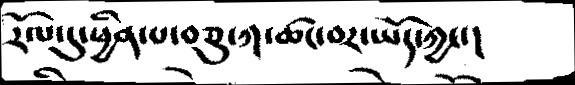རོལ་དུ་ཕྱིན་པ་བཅུ་ཀ་ཚང་བར་ཡོད་ཀྱང་།
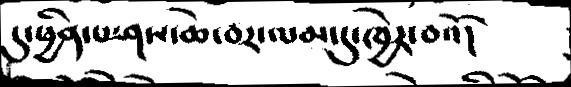དུ་ཕྱིན་པ་ཤས་ཆེ་བར་ལམ་དུ་ཁྱེར་བའོ།་
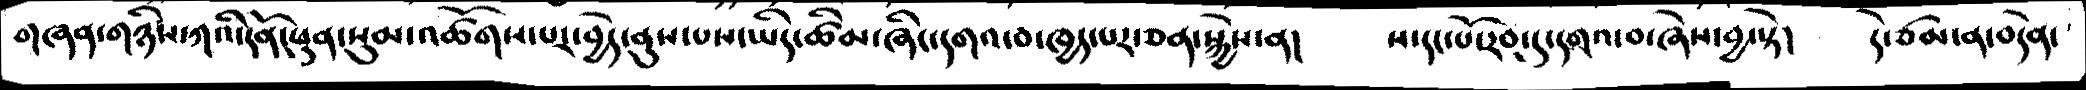གཞན་གཉིས་ཀའི་དོན་ཕུན་སུམ་འཚོགས་པར་བྱེད་ནུས་པས་ཡིད་ཚིམ་ཞིང་དགའ་བ་ཁྱད་པར་ཅན་སྐྱེས་ན།    ས་དང་པོ་རབ་དུ་དགའ་བ་ཞེས་བྱ་སྟེ།   དེ་ཙམ་ན་བདེན་
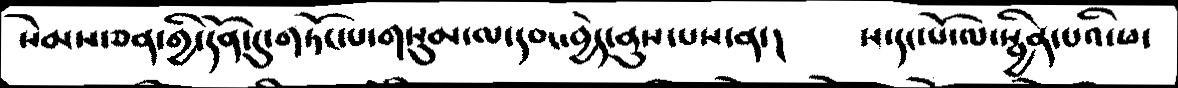སེམས་ཅན་གྱི་དོན་དུ་གཏོང་པ་གསུམ་ལ་དབང་བྱེད་ནུས་པས་ན་།   ས་དང་པོ་ལ་སྦྱིན་པའི་ཕ་
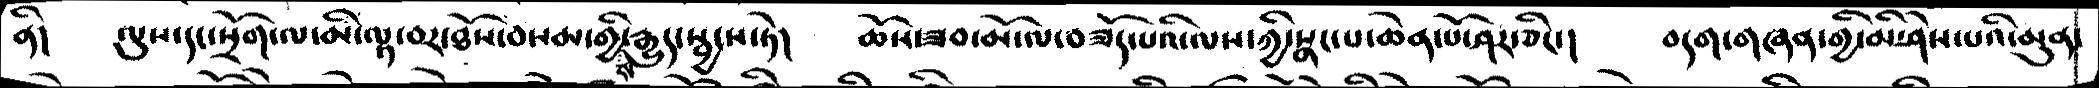ནི།    ལུས་དང་སྲོག་ལ་མི་ལྟ་བར་ཐོས་བསམ་གྱིས་རྒྱུད་སྦྱངས་ཏེ།    ཆོས་ཟབ་མོ་ལ་བཟོད་པའི་ལས་ཀྱི་སྣང་པ་ཆེན་པོ་ཤར་ཅིང་།   བདག་གཞན་གྱི་མི་ཤེས་པའི་མུན་
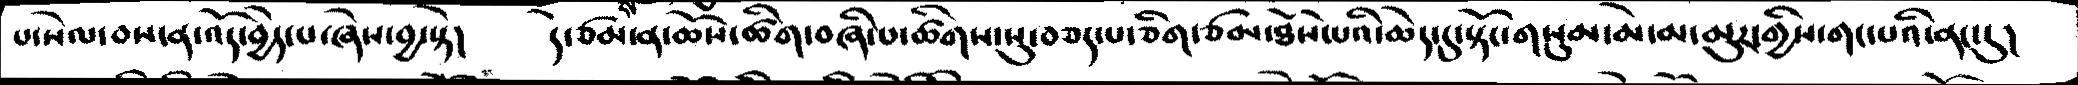པ་སེལ་བས་ན་འོད་བྱེད་པ་ཞེས་བྱ་སྟེ།    དེ་ཙམ་ན་ཆོས་ཚིག་བཞི་པ་ཚིགས་སུ་བཅད་པ་ཅིག་ཙམ་ཐོས་པའི་ཆེད་དུ་སྟོང་གསུམ་མེ་མ་མུར་གྱིས་གང་པའི་ནང་དུ།
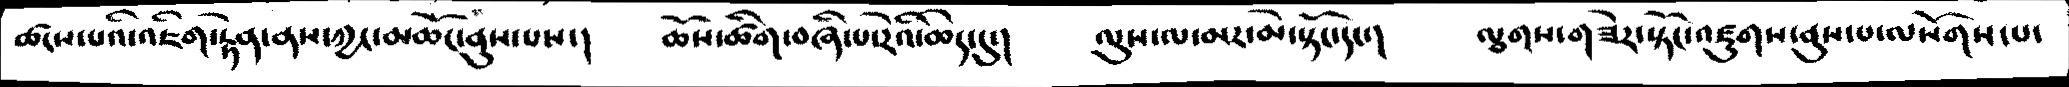ཚངས་པའི་འཇིག་རྟེན་ནས་ཀྱང་མཆོང་ནུས་པས་།    ཆོས་ཚིག་བཞི་པ་རེའི་ཆེད་དུ་།    ལུས་ལ་མར་མེ་སྟོང་དང་།    ལྕགས་གཟེར་སྟོང་འཛུགས་ནུས་པ་ལསོགས་པ་
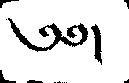༄༅།
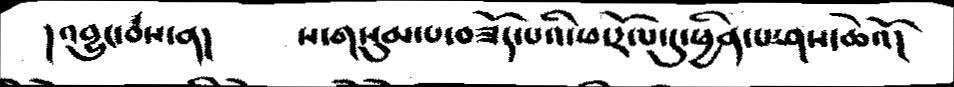།འབྱུང་བས་ན།    ས་གསུམ་པ་བཟོད་པའི་ཕ་རོལ་དུ་ཕྱིན་པ་ཤས་ཆེའོ།
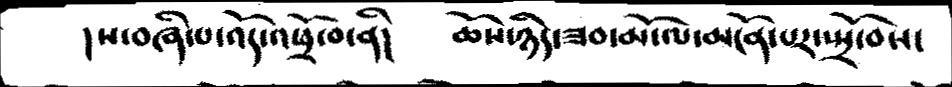།ས་བཞི་པ་འདོ་འཕྲོ་བ་ནི།    ཆོས་ཉིད་ཟབ་མོ་ལ་མངོན་པར་སྤྲོ་བས་
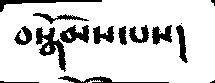བསྒོམས་པས།
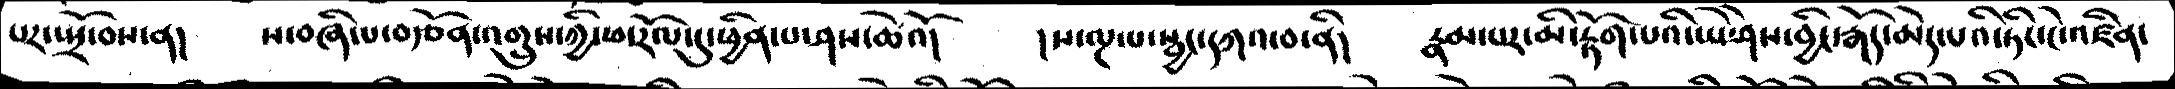པར་སྤྲོ་བས་ན།    ས་བཞི་པ་བརྩོན་གྲུས་ཀྱི་ཕ་རོལ་དུ་ཕྱིན་པ་ཤས་ཆེའོ།    །ས་ལྔ་པ་སྦྱང་དཀའ་བ་ནི།   རྣམ་པར་མི་རྟོག་པའི་ཡེ་ཤེས་བྱིང་རྒོད་མེད་པའི་ཏིང་ངེ་འཛིན་
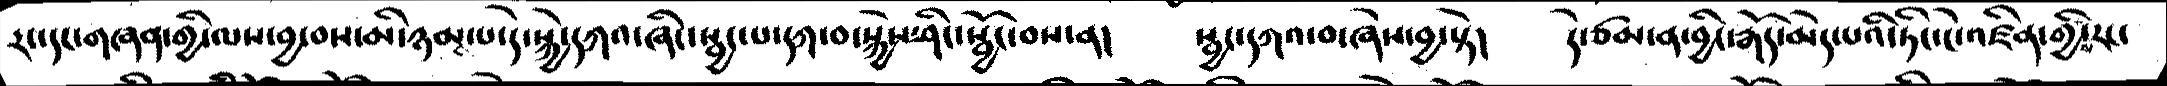རང་དང་གཞན་གྱི་ལས་བྱ་བས་མི་ཉམ་པ་དེ་སྐྱེ་དཀའ་ཞིང་སྦྱང་པ་དཀ་བ་སྐྱེས་ཤིང་སྦྱོང་བས་ན།    སྦྱང་དཀའ་བ་ཞེས་བྱ་སྟེ།   དེ་ཙམ་ན་བྱིང་རྒོད་མེད་པའི་ཏིང་ངེ་འཛིན་གྱིས་རང་
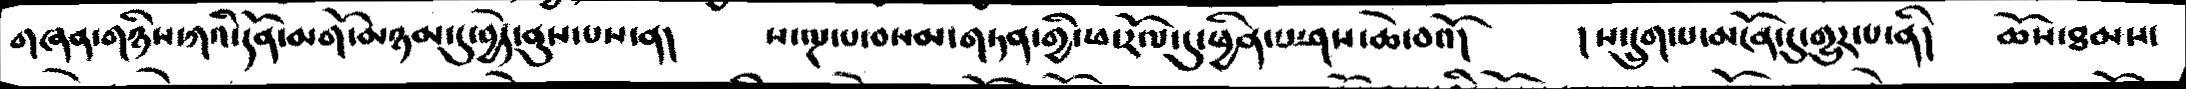གཞན་གཉིས་ཀའི་དོན་མགོ་མཉམ་དུ་བྱེད་ནུས་པས་ན།   ས་ལྔ་པ་བསམ་གཏན་གྱི་ཕ་རོལ་དུ་ཕྱིན་པ་ཤས་ཆེ་བའོ།   །ས་དྲུག་པ་མངོན་དུ་གྱུར་པ་ནི།   ཆོས་ཐམས་
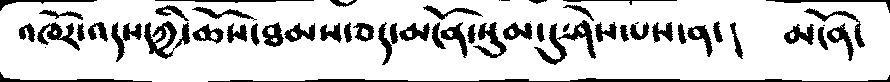འཁོར་འདས་ཀྱི་ཆོས་ཐམས་ཅད་མངོན་སུམ་དུ་ཤེས་པས་ན་།   མངོན་
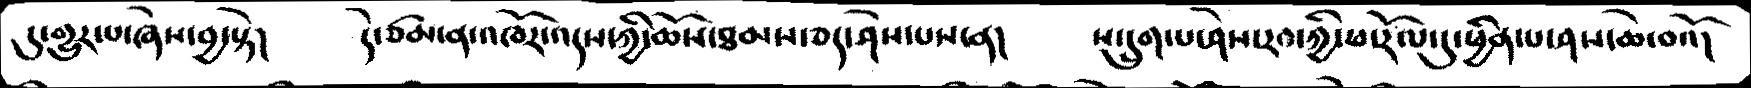དུ་གྱུར་པ་ཞེས་བྱ་སྟེ།    དེ་ཙམ་ན་འཁོར་འདས་ཀྱི་ཆོས་ཐམས་ཅད་ཤེས་པས་ན།    ས་དྲུག་པ་ཤེས་རབ་ཀྱི་ཕ་རོལ་དུ་ཕྱིན་པ་ཤས་ཆེ་བའོ།
